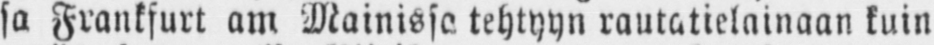sa Frankfurt am Mainissa tehtyyn rautatielainaan kuin
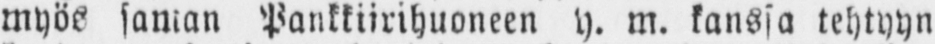myös saman Pankkiirihuoneen y. m. kanssa tehtyyn
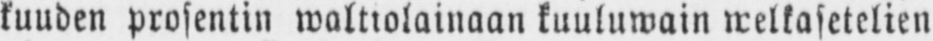kuuden prosentin waltiolainaan kuuluwain welkasetelien
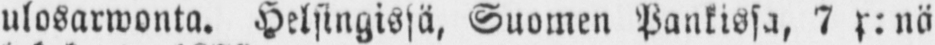ulosarwonta. Helsingissä, Suomen Pankissa, 7 p:nä
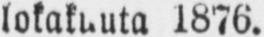lokakuuta 1876.
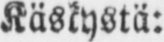Käskystä:
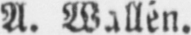A. Wallén.
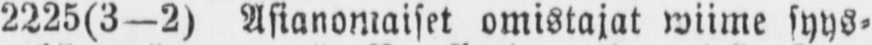2225(3—2) Asianomaiset omistajat wiime syys-
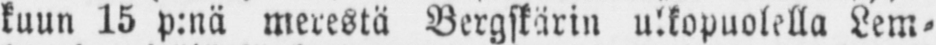kuun 15 p:nä merestä Bergskärin ulkopuolella Lem-
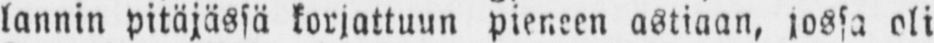lannin pitäjässä korjattuun pieneen astiaan, jossa oli
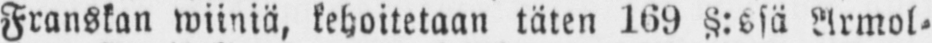Franskan wiiniä, kehoitetaan täten 169 §:ssä Armol-
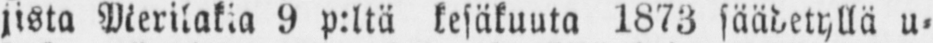lista Merilakia 9 p:ltä kesäkuuta 1873 säädetyllä u-
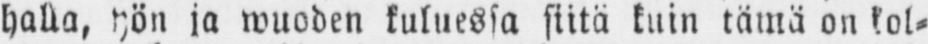halla, yön ja wuoden kuluessa siitä kuin tämä on kol-
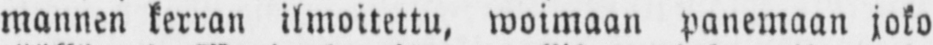mannen kerran ilmoitettu, woimaan panemaan joko
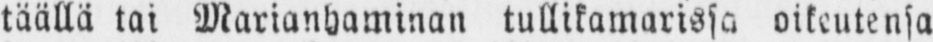täällä tai Marianhaminan tullikamarissa oikeutensa
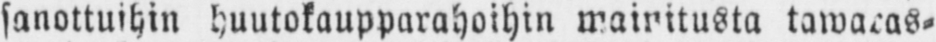sanottuihin huutokaupparahoihin mainitusta tawaras-
